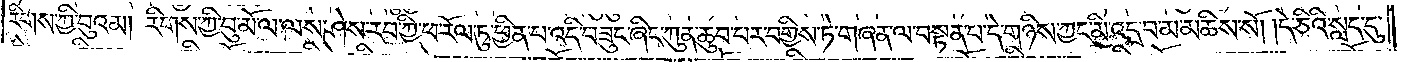རིགས་ཀྱི་བུའམ། རིགས་ཀྱི་བུ་མོ་ལ་ལས་ཤེས་རབ་ཀྱི་ཕ་རོལ་ཏུ་ཕྱིན་པ་འདི་བཟུང་ཞིང་ཀུན་ཆུབ་པར་བགྱིས་ཏེ་གཞན་ལ་བསྟན་པ་དེ་གཉིས་ཀྱང་མི་འདྲ་བ་མ་མཆིས་སོ། །དེ་ཅིའི་སླད་དུ་
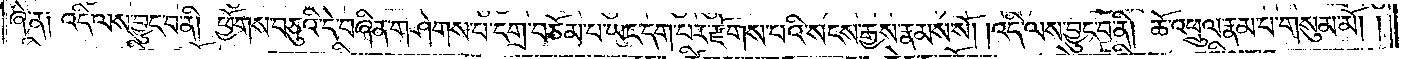ཞེ་ན། འདི་ལས་བྱུང་བ་ནི། ཕྱོགས་བཅུའི་དེ་བཞིན་གཤེགས་པ་དགྲ་བཅོམ་པ་ཡང་དག་པར་རྫོགས་པའི་སངས་རྒྱས་རྣམས་སོ། །འདི་ལས་བྱུང་བ་ནི། ཆོ་འཕྲུལ་རྣམ་པ་གསུམ་མོ། །
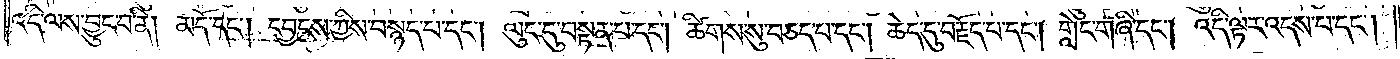འདི་ལས་བྱུང་བ་ནི། མདོ་དང༌། དབྱངས་ཀྱིས་བསྙད་པ་དང༌། ལུང་དུ་བསྟན་པ་དང༌། ཚིགས་སུ་བཅད་པ་དང༌། ཆེད་དུ་བརྗོད་པ་དང༌། གླེང་གཞི་དང༌། འདི་ལྟར་འདས་པ་དང༌།
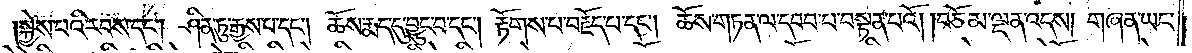སྐྱེས་པའི་རབས་དང༌། ཤིན་ཏུ་རྒྱས་པ་དང༌། ཆོས་རྨད་དུ་བྱུང་བ་དང༌། རྟོགས་པ་བརྗོད་པ་དང༌། ཆོས་གཏན་ལ་དབབ་པ་བསྟན་པའོ། །བཅོམ་ལྡན་འདས། གཞན་ཡང་
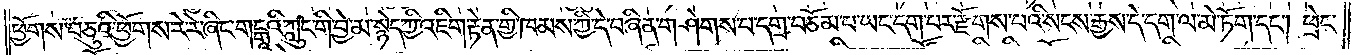ཕྱོགས་བཅུའི་ཕྱོགས་རེ་རེ་ཞིང་གངྒཱའི་ཀླུང་གི་བྱེ་མ་སྙེད་ཀྱི་འཇིག་རྟེན་གྱི་ཁམས་ཀྱི་དེ་བཞིན་གཤེགས་པ་དགྲ་བཅོམ་པ་ཡང་དག་པར་རྫོགས་པའི་སངས་རྒྱས་དེ་དག་ལ་མེ་ཏོག་དང༌། ཕྲེང་
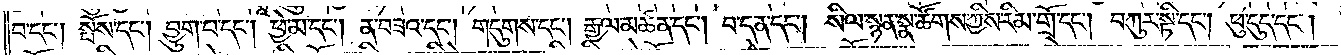བ་དང༌། སྤོས་དང༌། བྱུག་པ་དང༌། ཕྱེ་མ་དང༌། ན་བཟའ་དང༌། གདུགས་དང༌། རྒྱལ་མཚན་དང༌། བ་དན་དང༌། སིལ་སྙན་སྣ་ཚོགས་ཀྱིས་རིམ་གྲོ་དང༌། བཀུར་སྟི་དང༌། ཕུ་དུད་དང༌།
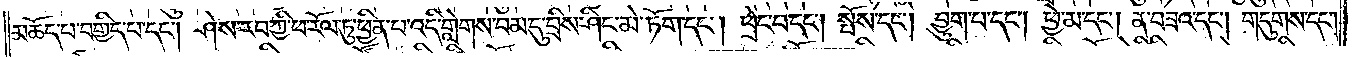མཆོད་པ་བགྱིད་པ་དང༌། ཤེས་རབ་ཀྱི་ཕ་རོལ་ཏུ་ཕྱིན་པ་འདི་གླེགས་བམ་དུ་བྲིས་ཤིང་མེ་ཏོག་དང༌། ཕྲེང་བ་དང༌། སྤོས་དང༌། བྱུག་པ་དང༌། ཕྱེ་མ་དང༌། ན་བཟའ་དང༌། གདུགས་དང༌།
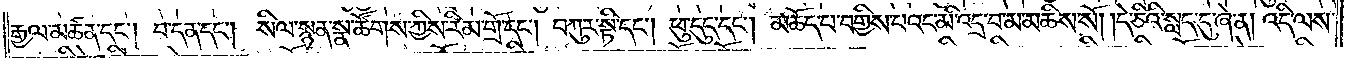རྒྱལ་མཚན་དང༌། བ་དན་དང༌། སིལ་སྙན་སྣ་ཚོགས་ཀྱིས་རིམ་གྲོ་དང༌། བཀུར་སྟི་དང༌། ཕུ་དུད་དང༌། མཆོད་པ་བགྱིས་པའང་མི་འདྲ་བ་མ་མཆིས་སོ། །དེ་ཅིའི་སླད་དུ་ཞེ་ན། འདི་ལས་
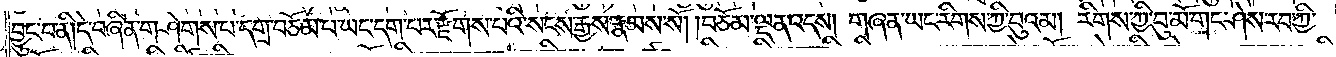བྱུང་བ་ནི། དེ་བཞིན་གཤེགས་པ་དགྲ་བཅོམ་པ་ཡང་དག་པར་རྫོགས་པའི་སངས་རྒྱས་རྣམས་སོ། །བཅོམ་ལྡན་འདས། གཞན་ཡང་རིགས་ཀྱི་བུའམ། རིགས་ཀྱི་བུ་མོ་གང་ཤེས་རབ་ཀྱི།
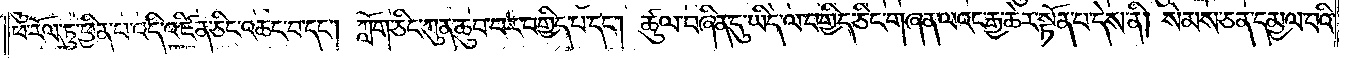ཕ་རོལ་ཏུ་ཕྱིན་པ་འདི་འཛིན་ཅིང་འཆང་བ་དང༌། ཀློག་ཅིང་ཀུན་ཆུབ་པར་བགྱིད་པ་དང༌། ཚུལ་བཞིན་དུ་ཡིད་ལ་བགྱིད་ཅིང་གཞན་ལའང་རྒྱ་ཆེར་སྟོན་པ་དེས་ནི། སེམས་ཅན་དམྱལ་བའི་
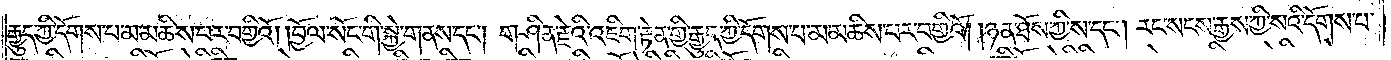རྒྱུད་ཀྱི་དོགས་པ་མ་མཆིས་པར་བགྱིའོ། །བྱོལ་སོང་གི་སྐྱེ་གནས་དང༌། གཤིན་རྗེའི་འཇིག་རྟེན་གྱི་རྒྱུད་ཀྱི་དོགས་པ་མ་མཆིས་པར་བགྱིའོ། །ཉན་ཐོས་ཀྱི་ས་དང༌། རང་སངས་རྒྱས་ཀྱི་སའི་དོགས་པ་
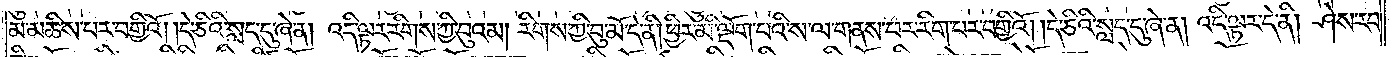མ་མཆིས་པར་བགྱིའོ། །དེ་ཅིའི་སླད་དུ་ཞེ་ན། འདི་ལྟར་རིགས་ཀྱི་བུའམ། རིགས་ཀྱི་བུ་མོ་དེ་ནི། ཕྱིར་མི་ལྡོག་པའི་ས་ལ་གནས་པར་རིག་པར་བགྱིའོ། །དེ་ཅིའི་སླད་དུ་ཞེ་ན། འདི་ལྟར་དེ་ནི། ཤེས་རབ་
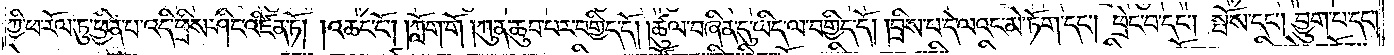ཀྱི་ཕ་རོལ་ཏུ་ཕྱིན་པ་འདི་ཕྲིས་ཤིང་འཛིན་ཏོ། །འཆང་ངོ༌། །ཀློག་གོ །ཀུན་ཆུབ་པར་བགྱིད་དོ། །ཚུལ་བཞིན་དུ་ཡིད་ལ་བགྱིད་དོ། །བྲིས་པ་དེ་ལའང་མེ་ཏོག་དང༌། ཕྲེང་བ་དང༌། སྤོས་དང༌། བྱུག་པ་དང༌།
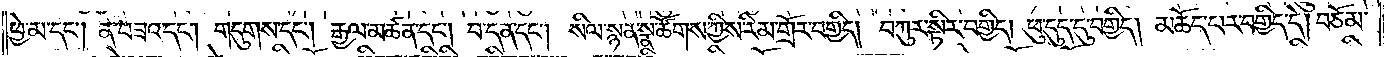ཕྱེ་མ་དང༌། ན་བཟའ་དང༌། གདུགས་དང༌། རྒྱལ་མཚན་དང༌། བ་དན་དང༌། སིལ་སྙན་སྣ་ཚོགས་ཀྱིས་རིམ་གྲོར་བགྱིད། བཀུར་སྟིར་བགྱིད། ཕུ་དུད་དུ་བགྱིད། མཆོད་པར་བགྱིད་དེ། བཅོམ་
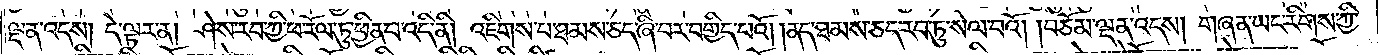ལྡན་འདས། དེ་ལྟར་ན། ཤེས་རབ་ཀྱི་ཕ་རོལ་ཏུ་ཕྱིན་པ་འདི་ནི། འཇིགས་པ་ཐམས་ཅད་ཞི་བར་བགྱིད་པའོ། །ནད་ཐམས་ཅད་རབ་ཏུ་སེལ་བའོ། །བཅོམ་ལྡན་འདས། གཞན་ཡང་རིགས་ཀྱི་
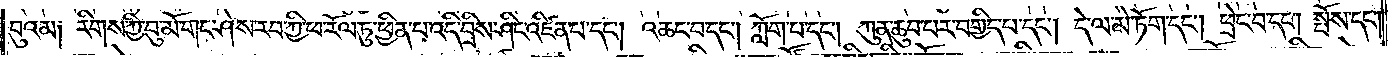བུའམ། རིགས་ཀྱི་བུ་མོ་གང་ཤེས་རབ་ཀྱི་ཕ་རོལ་ཏུ་ཕྱིན་པ་འདི་བྲིས་ཤིང་འཛིན་པ་དང༌། འཆང་བ་དང༌། ཀློག་པ་དང༌། ཀུན་ཆུབ་པར་བགྱིད་པ་དང༌། དེ་ལ་མེ་ཏོག་དང༌། ཕྲེང་བ་དང༌། སྤོས་དང༌།
